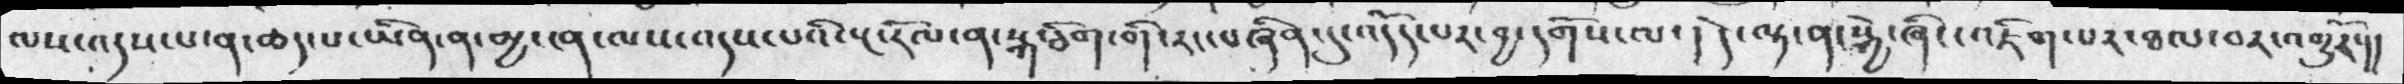ལས་འདས་པ་ན་ཆད་པ་ཡིན་ན་མྱ་ངན་ལས་འདས་པའི་སྔ་རོལ་ན་སྐ་ཅིག་གི་རང་བཞིན་དུ་འདོད་པར་བྱ་དགོས་ལ་། དེ་ལྟ་ན་སྐྱེ་ཞིང་འཇིག་པར་ཐལ་བར་འགྱུརོ་།།
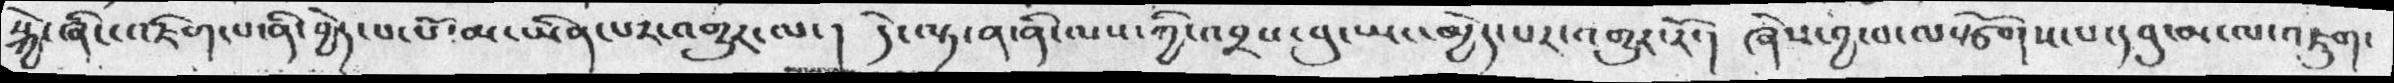སྐྱེ་ཞིང་འཇིག་པ་ནི་བྱེད་པ་པོ་མ་ཡིན་པར་འགྱུར་ལ་ ། དེ་ལྟར་ན་ནི་ལས་ཀྱི་འབྲས་བུ་ཡང་མྱེད་པར་འགྱུར་རོ་།   ཞེས་བྱ་བ་ལསྩོགས་པ་དབུ་མ་ལ་འཇུག་
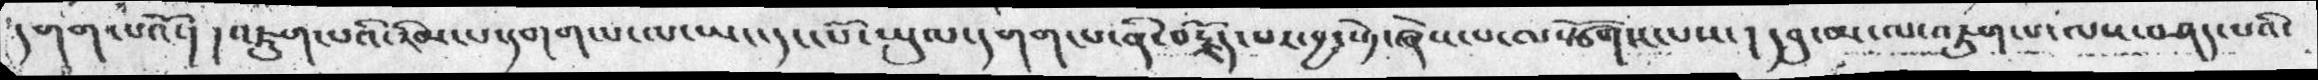དགག་པའོ་།  ། འཇུག་པའི་རིམ་པ་དགག་པ་ལ་ཡང་དང་པོ་ཡུལ་དགག་པ་ནི་བརྗོད་པར་བྱ་ཏེ་ཞེས་པ་ལསྩོགས་པས་  ། དབུ་མ་ལ་འཇུག་པ་ལས་བཤད་པའི་
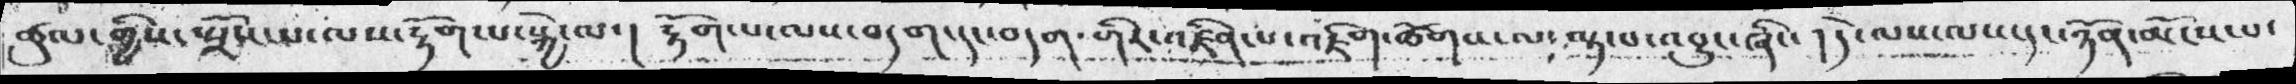ཚུལ་གྱིས་སྤྲོས་པ་ལས་རྟོག་པ་སྐྱེ་ལ་།  རྟོག་པ་ལས་བདག་དང་བདག་གིར་འཛིན་པ་འཇིག་ཚོགས་ལ་ལྟ་བ་འབྱུང་ཞིང་  ། དེ་ལས་ལས་དང་ཉོན་མོངས་པ་
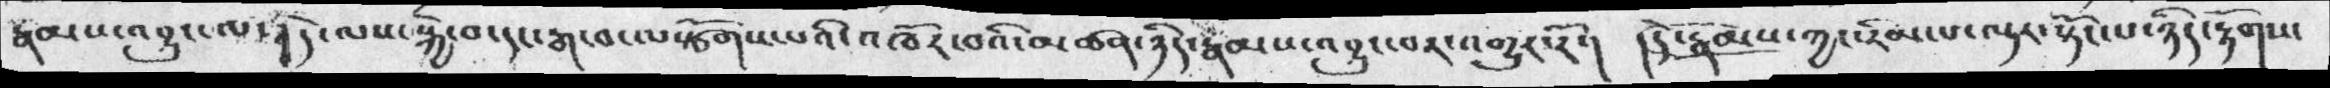རྣམས་འབྱུང་ལ་། དེ་ལས་སྐྱེ་བ་དང་རྒ་བ་ལསྩོགས་པའི་འཁོར་བའི་མཚན་ཉིད་རྣམས་འབྱུང་པར་འགྱུར་རོ་།  །དེ་རྣམས་ཀྱང་རིམ་པ་ལྟར་སྟོང་པ་ཉིད་རྟོགས་
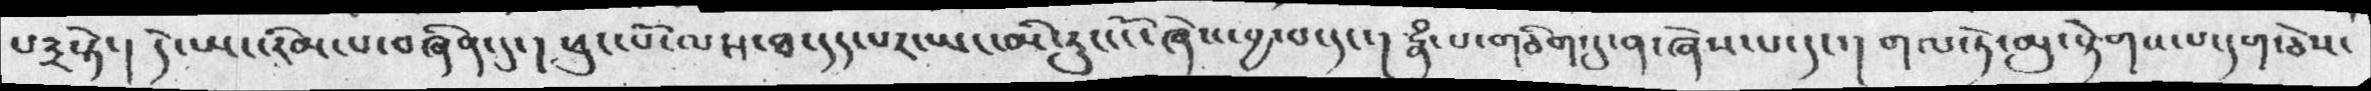པ༣སྟེ་། དེ་ཡང་རིམ་པ་བཞིན་དུ་།  ཕུང་པོ་ལས་ཐ་དད་པར་ཡང་མི་རུང་ངོ་ཞེས་བྱ་བ་དང་།  རྣཾ་པ་གཅིག་དུ་ན་ཞེས་པདང་།  གལ་ཏེ་མུ་སྟེགས་པ་དག་ཅེས་
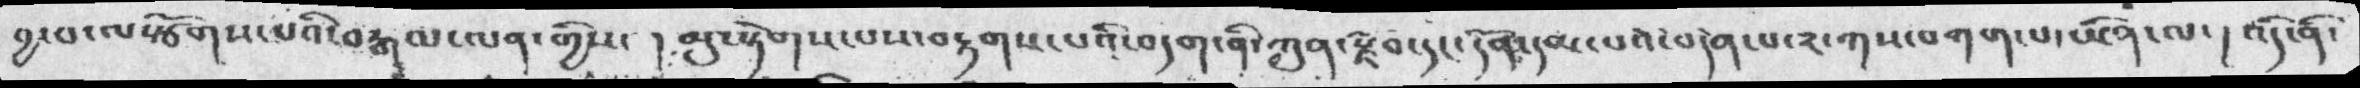བྱ་བ་ལསྩོགས་པའི་བརྒལ་ལན་གྱིས་ ། མུ་སྟེགས་པས་བརྟགས་པའི་བདག་ནི་ཀུན་རྫོབ་དང་དོན་དམ་པའི་བདེན་པ་༢་ཀས་བགག་པ་ཡིན་ལ་། འདི་ནི་
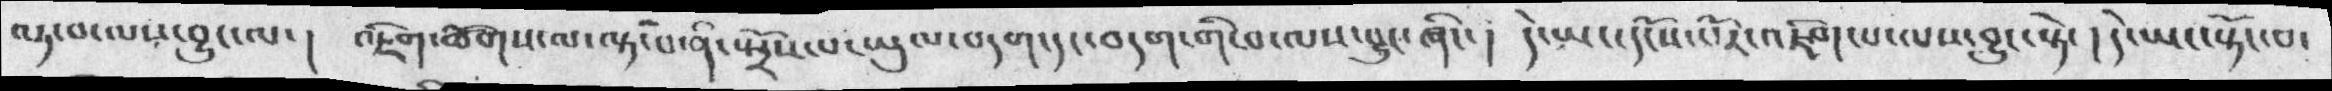ལྡ་མ་ལས་བྱུང་ལ་།  འཇིག་ཚོགས་ལ་ལྟ་བ་ནི་སྤྲོས་པ་ཡུལ་བདག་དང་བདག་གི་པ་ལས་བྱུར་ཞིང་།  དེ་ཡང་དངོས་པོར་འཇོག་པ་ལས་བྱུང་སྟེ་ ། དེ་ཡང་སྟོང་བ་
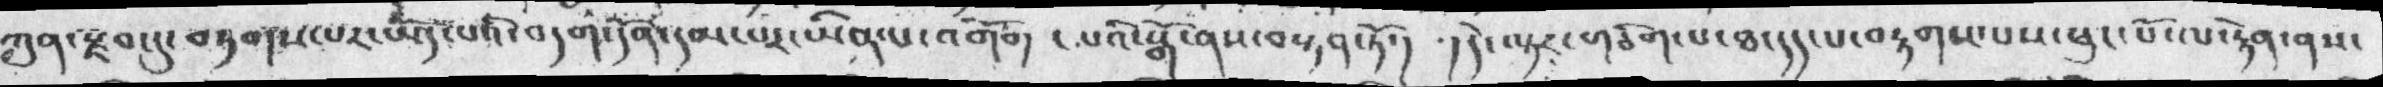ཀུན་རྫོབ་དུ་གཏགས་པར་ཡོད་པིའི་བདག་གི་དོན་དམ་པར་ཡིན་པ་འགོག  ། པའི་སྒོ་ནས་བསྟན་ཏོ་།  །དེ་ལྟར་གཅིག་པ་ཐ་དད་པ་ཐ་དད་པ་བརྟགས་པས་ཕུང་པོ་ལ་རྟེན་ན
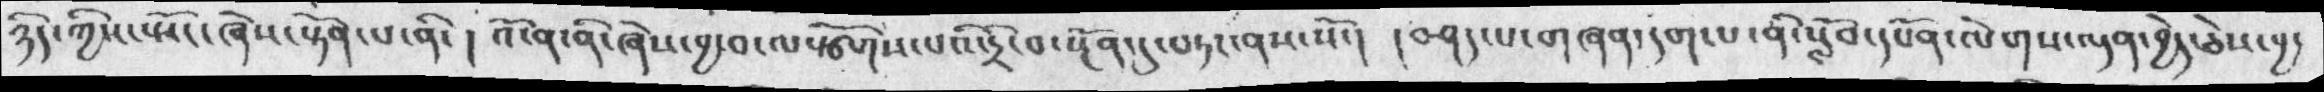ཉིད་ཀྱིས་སྤོང་ཞེས་སྟོན་པ་ནི་ ། འོ་ན་ནི་ཞེས་བྱ་བ་ལསྩོགས་པའི་དྲི་བ་སྔོན་དུ་བཏང་ནས་སོ་།  ། བཤད་པ་གཞན་དག་པ་ནི་སློབ་དཔོན་ལེགས་ལྡན་བྱེད་ཅེས་བྱ་
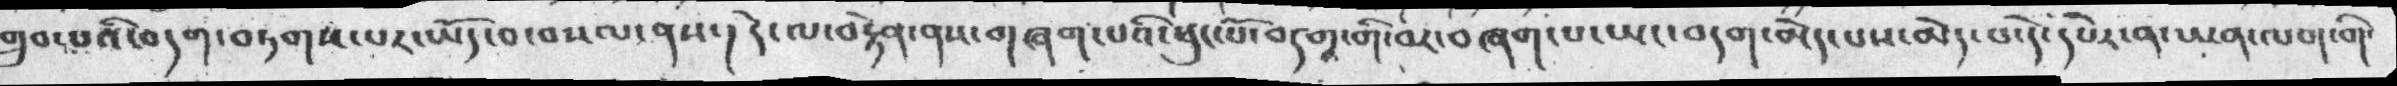གྲུབ་པའི་བདག་བཏགས་པར་ཡོད་བ་བསལ་ནས་།  དེ་ལ་བརྟེན་ནས་གཞག་པའི་ཕུང་པོ་བདག་གི་བར་བཞག་པ་ཡང་བདག་མེད་པས་མེད་པ་དེ་དཔེར་ན་ཡན་ལག་གི་
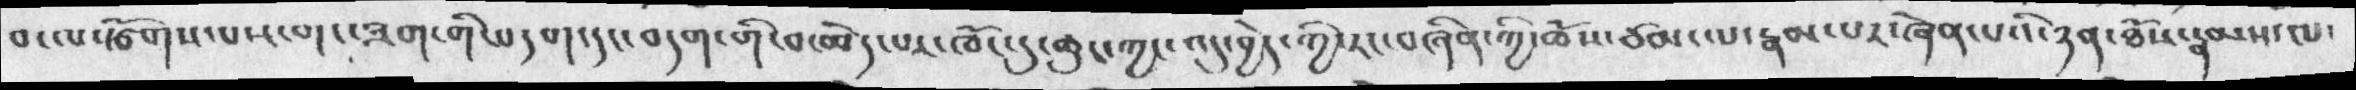བ་ལསྩོགས་པས་གང་ཟགགི་བདག་དང་བདག་གི་བ་མེད་པར་ཁོང་དུ་ཆུང་ཀྱང་འདུ་བྱེད་ཀྱི་རང་བཞིན་ཀྱི་ཆོས་ཙམ་ལ་རྣམ་པར་ཞེན་པའི་ཉན་ཐོས་རྣམས་ལ་
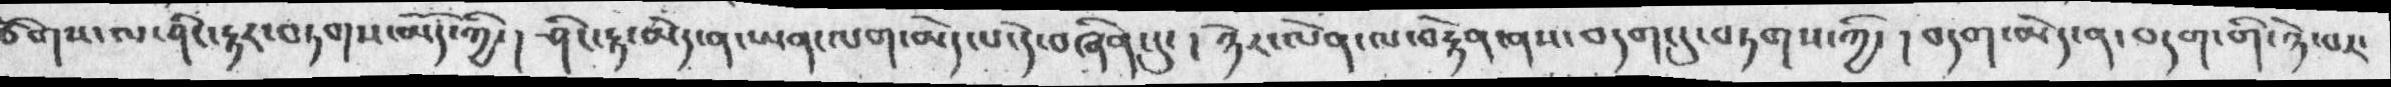རྩོགས་ལ་ཤིང་རྟར་བཏགས་མོད་ཀྱི་།  ཤིང་རྟ་མེད་ན་ཡན་ལག་མེད་པ་དེ་བཞིན་དུ་ ། ཉེར་ལེན་ལ་བརྟེན་ནས་བདག་དུ་བཏགས་ཀྱི་ །  བདག་མེད་ན་བདག་གི་ཉེ་པར་
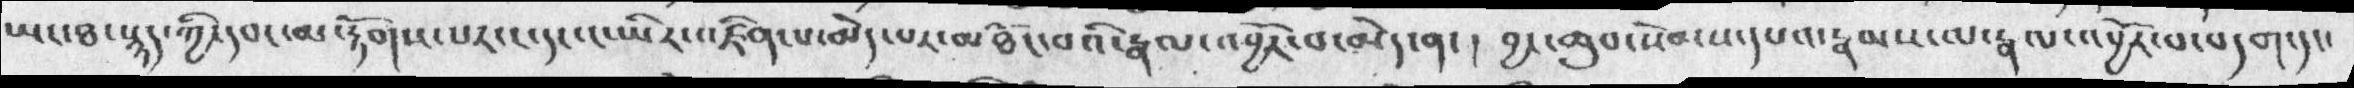ཡང་ཐ་སྙད་ཀྱི་དབང་མ་རྟོགས་པར་ང་དང་ང་ཡིར་འཛིན་པ་མེད་པར་མཐོང་བའི་རྣལ་འབྱོར་བ་མེད་ན་ །  བྱང་ཆུབ་སེམས་དཔའ་རྣམས་ལ་རྣལ་འབྱོར་བ་བདག་དང་
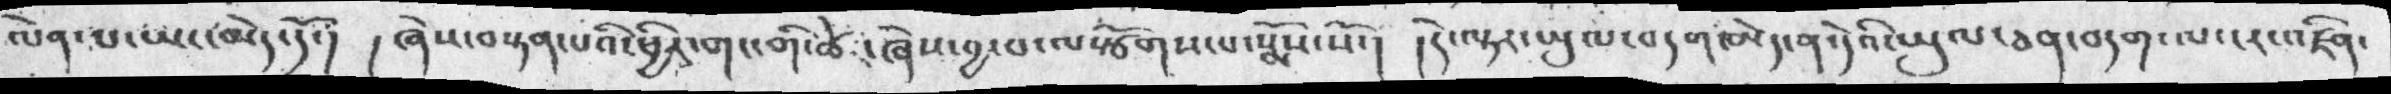ལེན་པ་ཡང་མེད་དོ་།  ། ཞེས་བསྟན་པའི་ཕྱིར་གང་གི་ཚེ་ཞེས་བྱ་བ་ལསྩོགས་པ་སྨོས་སོ་།  །དེ་ལྟར་ཡུལ་བདག་མེད་ན་དེའི་ཡུལ་ཅན་བདག་ལ་ངར་འཛིན་
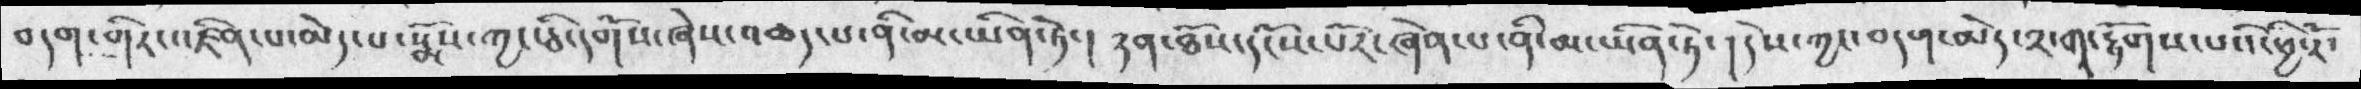བདག་གིར་འཛིན་པ་མེད་པ་སྨོས་ཀྱང་ཅི་དགོས་ཞེས་འཆད་པ་ནི་མ་ཡིན་ཏེ་ ། ཉན་ཐོས་དངོས་པོར་ཞེན་པ་ནི་མ་ཡིན་ཏེ་ ། དེས་ཀྱང་བདག་མེད་༢་ག་རྟོགས་པའི་ཕྱི་རོ་
